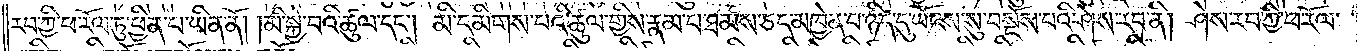རབ་ཀྱི་ཕ་རོལ་ཏུ་ཕྱིན་པ་ཡིན་ནོ། །མི་སྐྱེ་བའི་ཚུལ་དང༌། མི་དམིགས་པའི་ཚུལ་གྱིས་རྣམ་པ་ཐམས་ཅད་མཁྱེན་པ་ཉིད་དུ་ཡོངས་སུ་བསྔོས་པའི་ཤེས་རབ་ནི། ཤེས་རབ་ཀྱི་ཕ་རོལ་
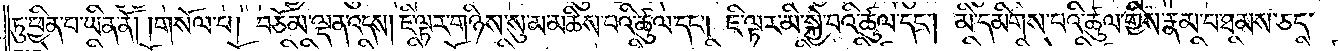ཏུ་ཕྱིན་པ་ཡིན་ནོ། །གསོལ་པ། བཅོམ་ལྡན་འདས། ཇི་ལྟར་གཉིས་སུ་མ་མཆིས་པའི་ཚུལ་དང༌། ཇི་ལྟར་མི་སྐྱེ་བའི་ཚུལ་དང༌། མི་དམིགས་པའི་ཚུལ་གྱིས་རྣམ་པ་ཐམས་ཅད་
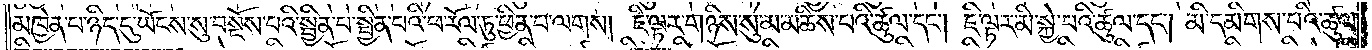མཁྱེན་པ་ཉིད་དུ་ཡོངས་སུ་བསྔོས་པའི་སྦྱིན་པ་སྦྱིན་པའི་ཕ་རོལ་ཏུ་ཕྱིན་པ་ལགས། ཇི་ལྟར་གཉིས་སུ་མ་མཆིས་པའི་ཚུལ་དང༌། ཇི་ལྟར་མི་སྐྱེ་བའི་ཚུལ་དང༌། མི་དམིགས་པའི་ཚུལ་
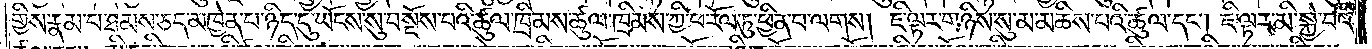གྱིས་རྣམ་པ་ཐམས་ཅད་མཁྱེན་པ་ཉིད་དུ་ཡོངས་སུ་བསྔོས་པའི་ཚུལ་ཁྲིམས་ཚུལ་ཁྲིམས་ཀྱི་ཕ་རོལ་ཏུ་ཕྱིན་པ་ལགས། ཇི་ལྟར་གཉིས་སུ་མ་མཆིས་པའི་ཚུལ་དང༌། ཇི་ལྟར་མི་སྐྱེ་བའི་
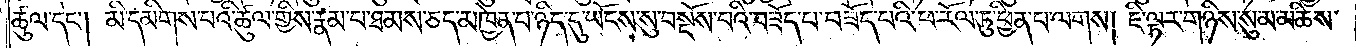ཚུལ་དང༌། མི་དམིགས་པའི་ཚུལ་གྱིས་རྣམ་པ་ཐམས་ཅད་མཁྱེན་པ་ཉིད་དུ་ཡོངས་སུ་བསྔོས་པའི་བཟོད་པ་བཟོད་པའི་ཕ་རོལ་ཏུ་ཕྱིན་པ་ལགས། ཇི་ལྟར་གཉི་སུ་མ་མཆིས་
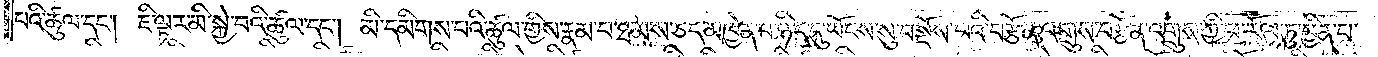པའི་ཚུལ་དང༌། ཇི་ལྟར་མི་སྐྱེ་བའི་ཚུལ་དང༌། མི་དམིགས་པའི་ཚུལ་གྱིས་རྣམ་པ་ཐམས་ཅད་མཁྱེན་པ་ཉིད་དུ་ཡོངས་སུ་བསྔོས་པའི་བརྩོན་འགྲུས་བརྩོན་འགྲུས་ཀྱི་ཕ་རོལ་ཏུ་ཕྱིན་པ་
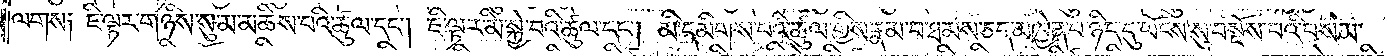ལགས། ཇི་ལྟར་གཉིས་སུ་མ་མཆིས་པའི་ཚུལ་དང༌། ཇི་ལྟར་མི་སྐྱེ་བའི་ཚུལ་དང༌། མི་དམིགས་པའི་ཚུལ་གྱིས་རྣམ་པ་ཐམས་ཅད་མཁྱེན་པ་ཉིད་དུ་ཡོངས་སུ་བསྔོས་པའི་བསམ་
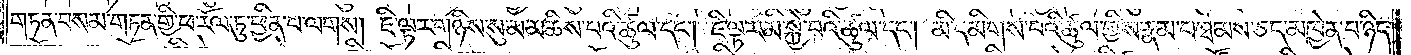གཏན་བསམ་གཏན་གྱི་ཕ་རོལ་ཏུ་ཕྱིན་པ་ལགས། ཇི་ལྟར་གཉིས་སུ་མ་མཆིས་པའི་ཚུལ་དང༌། ཇི་ལྟར་མི་སྐྱེ་པའི་ཚུལ་དང༌། མི་དམིགས་པའི་ཚུལ་གྱིས་རྣམ་པ་ཐམས་ཅད་མཁྱེན་པ་ཉིད་
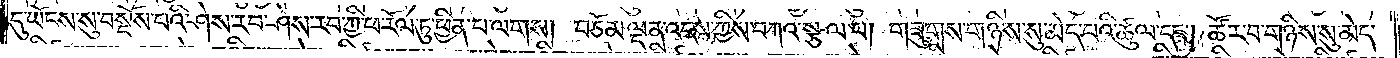དུ་ཡོངས་སུ་བསྔོས་པའི་ཤེས་རབ་ཀྱི་ཕ་རོལ་ཏུ་ཕྱིན་པ་ལགས། བཅོམ་ལྡན་འདས་ཀྱིས་བཀའ་སྩལ་པ། གཟུགས་གཉིས་སུ་མེད་པའི་ཚུལ་དང༌། ཚོར་བ་གཉིས་སུ་མེད་
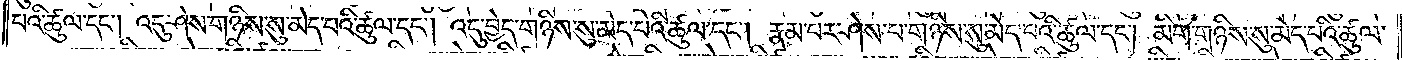པའི་ཚུལ་དང༌། འདུ་ཤེས་གཉིས་སུ་མེད་པའི་ཚུལ་དང༌། འདུ་བྱེད་གཉིས་སུ་མེད་པའི་ཚུལ་དང༌། རྣམ་པར་ཤེས་པ་གཉིས་སུ་མེད་པའི་ཚུལ་དང༌། མིག་གཉིས་སུ་མེད་པའི་ཚུལ་
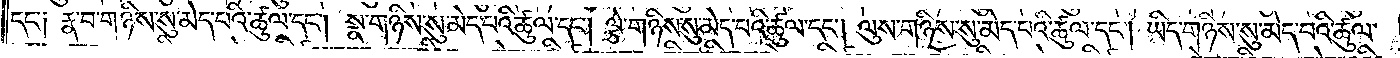དང་༑ རྣ་བ་གཉིས་སུ་མེད་པའི་ཚུལ་དང༌། སྣ་གཉིས་སུ་མེད་པའི་ཚུལ་དང༌། ལྕེ་གཉིས་སུ་མེད་པའི་ཚུལ་དང༌། ལུས་གཉིས་སུ་མེད་པའི་ཚུལ་དང༌། ཡིད་གཉིས་སུ་མེད་པའི་ཚུལ་
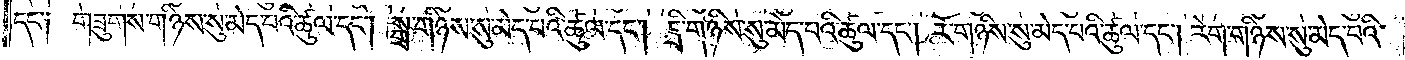དང་༑ གཟུགས་གཉིས་སུ་མེད་པའི་ཚུལ་དང༌། སྒྲ་གཉིས་སུ་མེད་པའི་ཚུལ་དང༌། དྲི་གཉིས་སུ་མེད་པའི་ཚུལ་དང༌། རོ་གཉིས་སུ་མེད་པའི་ཚུལ་དང༌། རེག་གཉིས་སུ་མེད་པའི་
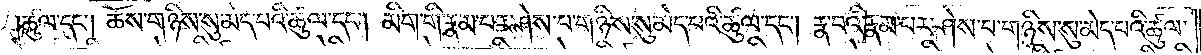ཚུལ་དང༌། ཆོས་གཉིས་སུ་མེད་པའི་ཚུལ་དང༌། མིག་གི་རྣམ་པར་ཤེས་པ་གཉིས་སུ་མེད་པའི་ཚུལ་དང༌། རྣ་བའི་རྣམ་པར་ཤེས་པ་གཉིས་སུ་མེད་པའི་ཚུལ་
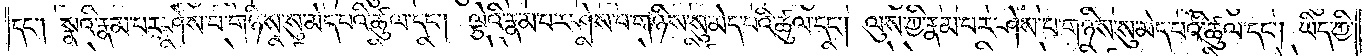དང༌། སྣའི་རྣམ་པར་ཤེས་པ་གཉིས་སུ་མེད་པའི་ཚུལ་དང༌། ལྕེའི་རྣམ་པར་ཤེས་པ་གཉིས་སུ་མེད་པའི་ཚུལ་དང༌། ལུས་ཀྱི་རྣམ་པར་ཤེས་པ་གཉིས་སུ་མེད་པའི་ཚུལ་དང༌། ཡིད་ཀྱི་
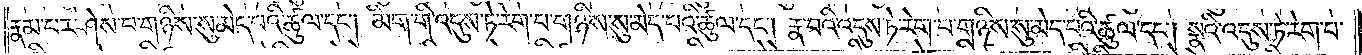རྣམ་པར་ཤེས་པ་གཉིས་སུ་མེད་པའི་ཚུལ་དང༌། མིག་གི་འདུས་ཏེ་རེག་པ་གཉིས་སུ་མེད་པའི་ཚུལ་དང༌། རྣ་བའི་འདུས་ཏེ་རེག་པ་གཉིས་སུ་མེད་པའི་ཚུལ་དང༌། སྣའི་འདུས་ཏེ་རེག་པ་
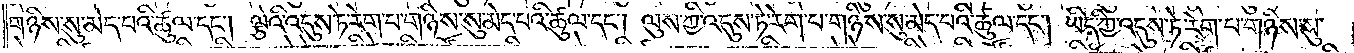གཉིས་སུ་མེད་པའི་ཚུལ་དང༌། ལྕེའི་འདུས་ཏེ་རེག་པ་གཉིས་སུ་མེད་པའི་ཚུལ་དང༌། ལུས་ཀྱི་འདུས་ཏེ་རེག་པ་གཉིས་སུ་མེད་པའི་ཚུལ་དང༌། ཡིད་ཀྱི་འདུས་ཏེ་རེག་པ་གཉིས་སུ་
